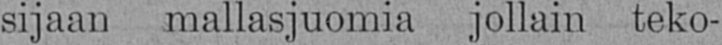sijaan mallasjuomia jollain teko-
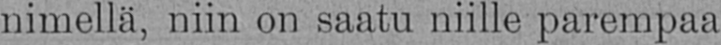nimellä, niin on saatu niille parempaa
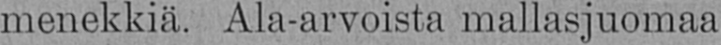menekkiä. Ala-arvoista mallasjuomaa
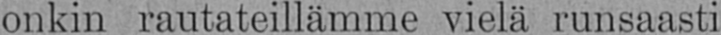onkin rautateillämme vielä runsaasti
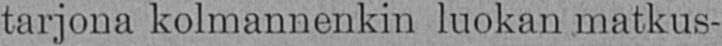tarjona kolmannenkin luokan matkus-
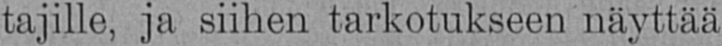tajille, ja siihen tarkotukseen näyttää
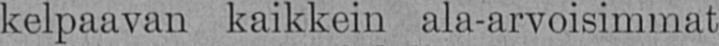kelpaavan kaikkein ala-arvoisimmat
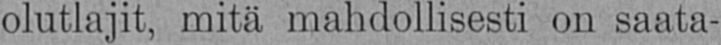olutlajit, mitä mahdollisesti on saata-
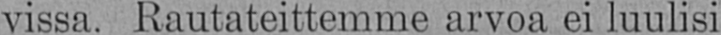vissa. Rautateittemme arvoa ei luulisi
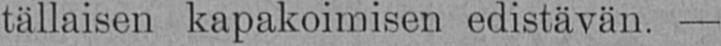tällaisen kapakoimisen edistävän. —
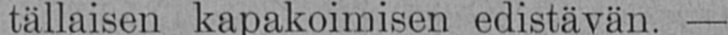Työm.
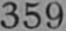359
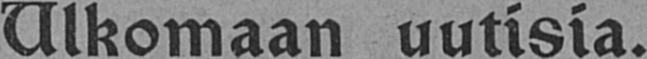Ulkomaan uutisia.
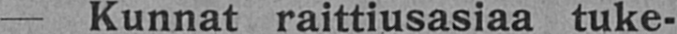— Kunnat raittiusasiaa tuke-
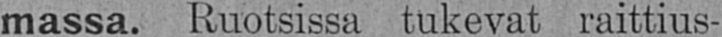massa. Ruotsissa tukevat raittius-
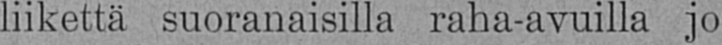liikettä suoranaisilla raha-avuilla jo
